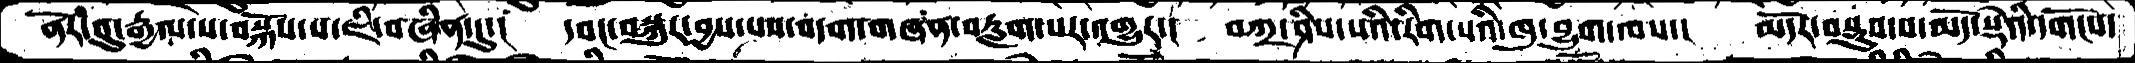ནོར་བུ་རྒྱལ་ས་བསྐོས་པ་ཇི་བཞིན་དུ་།  དབང་བསྐུར་བྱས་པས་བདག་གཞན་བརླག་པར་འགྱུར་།  བཀྲ་ཤིས་པའི་རིག་པའི་ཁུ་བྱུག་ལས་།   མདོར་བསྡུས་པ་མདོ་སྡེའི་དགོངས་
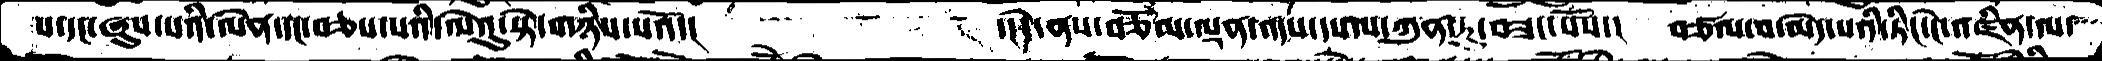པ་དང་ཞུས་པའི་ལེན་དང་བཅས་པའི་ལེའུ་སྟེ་གཉིས་པའོ་།         ་།དེ་ནས་བཅོམ་ལྡན་འདས་དཔལ་ཀུན་ཏུ་བཟང་པོས་།    བཙལ་བ་མེད་པའི་ཏིང་ངེ་འཛིན་ལ་
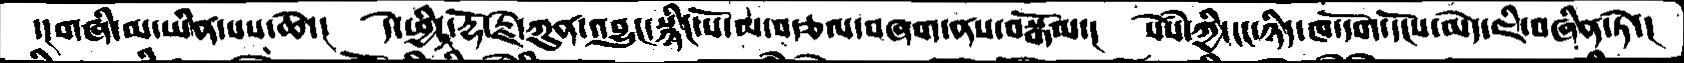དངགཞི་མ་ཡིན་པས་ཆེ་།   དེ་ཕྱིར་རྡོ་རྗེ་ཀུན་འབྱུང་སྙིང་པོ་མ་བརྩལ་བཞག་ནས་བསྒོམ་།   སེཾས་ཀྱི་ངང་ཉིད་ཁ་དོག་དངོས་མེད་ཇི་བཞིན་ཏེ་།
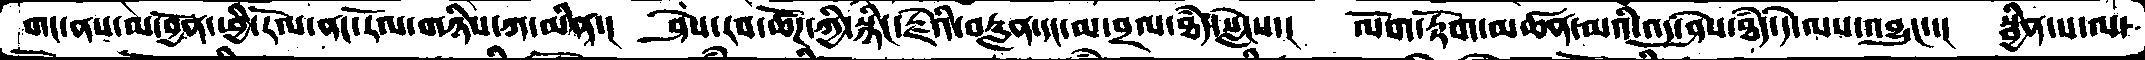གང་ནས་མ་བྱོན་ཕྱི་རོལ་ནང་རོལ་གཉིས་ཀ་མིན་།  ཤེས་རབ་ཚོཌ་ཀྱི་སྙིང་རྗེའི་བརླན་དང་མ་བྲལ་ཐདཾ་སླེངས་།  ལོག་རྟོག་མཚན་མའི་འདུ་ཤེས་ཐདཾ་དེ་ལས་འབྱུང་་།  སྦྱིན་པ་ལ་
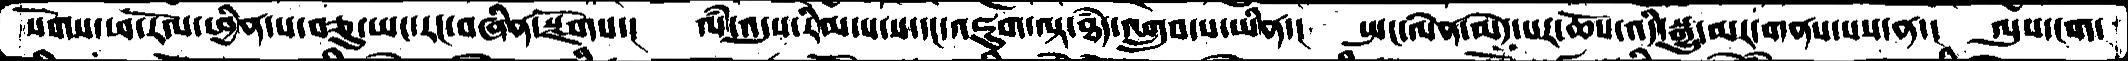སོགས་ཕ་རོལ་ཕྱིན་པ་བཅུ་ཡང་རང་བཞིན་སྫོགས་།  ལཾ་འདུས་རིམ་པ་ས་དང་འཇུག་ལྟ་ཐདཾ་འགྲུབ་པ་ཡིན་།  སྤང་ལེན་མེད་པར་ཆོས་འདི་སྒྱུ་མར་གནས་པས་ན་།  ལུས་ངག་
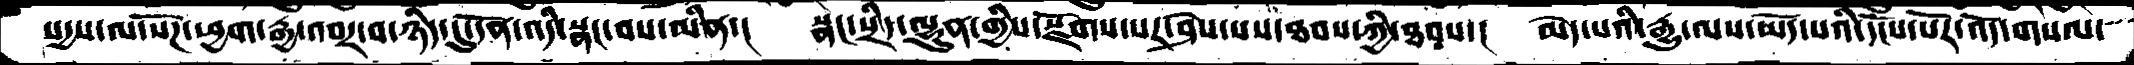སདྱས་ལ་སོཌ་ཕྱག་རྒྱ་འབར་བ་ཉིད་དུ་དོན་འདི་སྣང་བས་མིན་།  སྣང་སྲིད་ལྷུན་གྱིས་སྫོགས་པར་ཤེས་པས་ཐབས་ཀྱི་ཐབས་།  མེད་པའི་རྒྱུ་ལས་ཡོད་པའི་དངོས་པོར་འོད་གསལ་
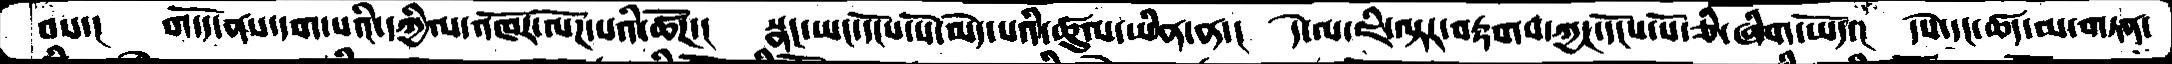བས་།  གདོད་ནས་དག་པའི་དཀྱིལ་འཁོར་ལེཌ་པའི་ཚོཌ།  སྣང་ཡང་དངོས་པོ་མེད་པའི་ཚུལ་ཡིན་ན་།  དེ་ལ་ཇི་ལྟར་བརྟགས་ཀྱང་དངོས་པོ་ཅི་ཞིག་ཡོད་།  དཔེ་དང་ཚད་མ་གཏན་
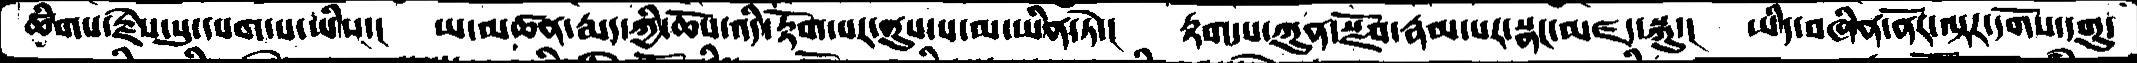ཚིགས་རྗེས་སུ་དཔག་པ་ཡིས་།  ཡ་མཚན་རྨད་བྱུང་ཀྱི་ཆོས་འདི་རྟོག་པར་ནུས་པ་མ་ཡིན་ཏེ་།  རྟག་པ་ཀུན་སྫོབ་རྣམ་པར་སྣང་མཛད་སྐུ་།  ཡིད་བཞིན་ནོར་ལྟར་དགོས་དགུ་
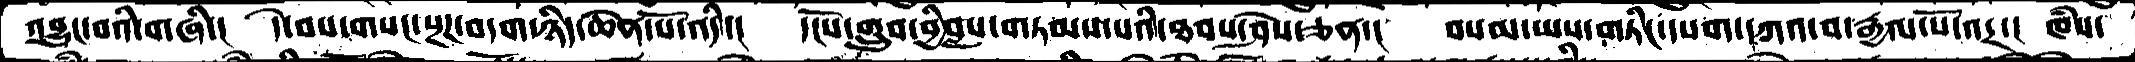འབྱུང་བའི་གཞི་།  དེ་བས་གསང་སྔཌ་བདག་ཉིད་ཆེན་པོ་འདི་།  དངོས་གྲུབ་བྱིབླས་གཏམས་པའི་ཐབས་ཤེས་ཅན་།  བསམ་ཡས་གཏིང་དཔག་དཀའ་བ་རྒྱལ་པོ་འདྲ་།  ཁཾས་
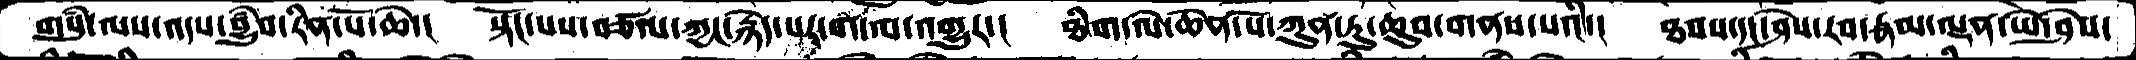གསུཾ་ལས་འདས་བྱུཾབ་རིན་པོ་ཆེ་།  སྟོང་པས་བཙལ་ཀྱང་རྙེད་པར་ག་ལ་འགྱུར་།  ཐིག་ལེ་ཆེན་པོ་ཀུན་ཏུ་ཆུབ་གནས་པའི་།  ཐབས་དང་ཤེས་རབ་རྣམ་ལྡན་ཡེ་ཤེས་
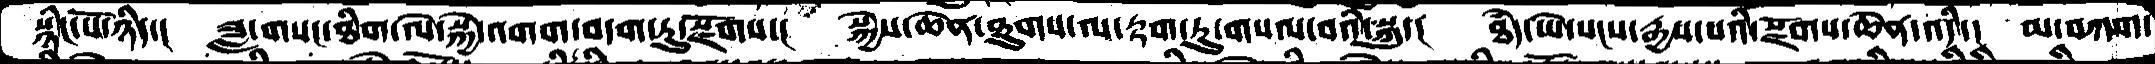སྙིང་པོ་ཉིད་།  ཟླ་གསང་ཐིག་ལེ་སྐྱེ་འགག་བདག་ཏུ་སྫོགས་།  སྐྱེས་ཆེན་ཐུགས་ལ་རྟག་ཏུ་གསལ་བའི་སྐུ་།  ཐཾད་ཡེ་སངས་རྒྱས་པའི་སྫོགས་ཆེན་འདི་། མ་བཀག་
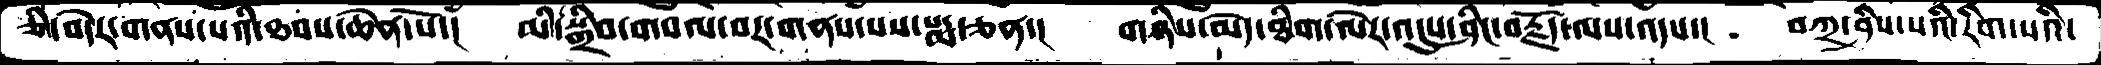ཅི་བདེེར་གནས་པའི་ཐབས་ཆེན་པོ་།  མི་སྒྲིབ་གསལ་བར་གནས་པས་སདྨ་ཅན་།  གཉིས་མེད་ཐིག་ལེར་འདུས་ཤིང་བརྗོད་ལས་འདས་།  བཀྲ་ཤིས་པའི་རིག་པའི་
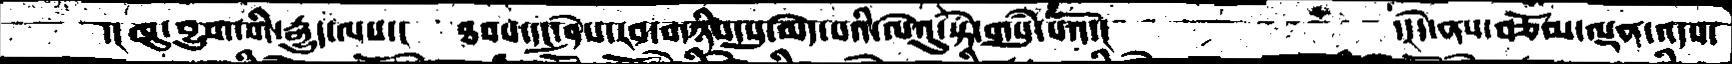་།ཁུ་བྱུག་གི་རྒྱུད་ལས་།  ཐབས་དང་ཤེསརབ་གཉིས་སུ་མེད་པའི་ལེའུ་སྟེ་གསུཾ་པའོ་།        ་།དེ་ནས་བཅོམ་ལྡན་འདས་
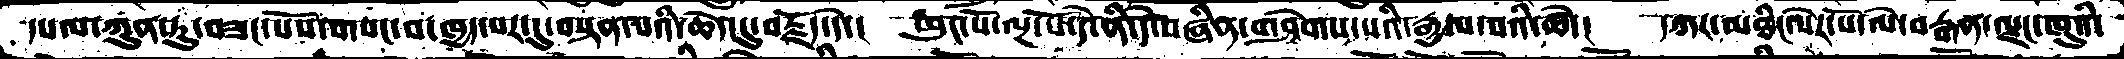དཔལ་ཀུན་ཏུ་བཟང་པོས་གསང་བ་ཁྱད་པར་དུ་བསྟན་པའི་ཆེད་དུ་བརྗོད་དེ་།  ཕུང་པོ་ལྔ་པོ་དེ་ནི་དེ་བཞིན་གཤེགས་པའི་རྒྱལ་པའི་ཚེ་།  དཀར་མཐིང་སེར་པོ་ལེ་བརྒན་ལྗང་ཁུའི་
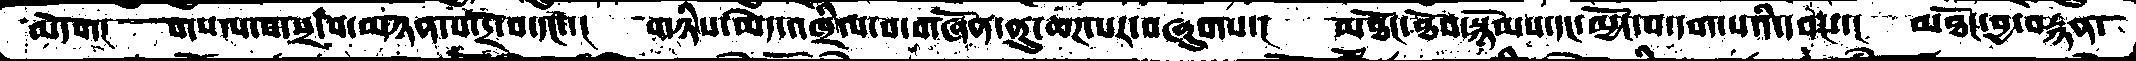མདོག་།  གསལ་བ་སྲ་བ་མཉན་པ་དྲ་བ་དང་།  གཉིས་མེད་འཁྲིལ་བ་གཞོན་ནུ་ཆཌ་པར་བཞུགས་།  མཐོང་ཐོབ་སྙོམས་དང་མྱོང་པ་དག་པའི་དབང་་།  མཐོང་བྱ་བརྙན་
